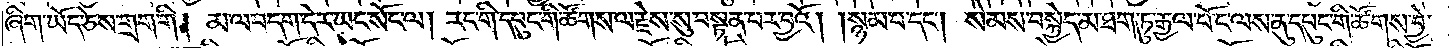ཞིག་ཡོད་ཅེས་གྲག་གི། མ་ལ་བདག་དེར་ཡང་སོང་ལ། རང་གི་དཔུང་གི་ཚོགས་ལ་རྗེས་སུ་བསྟན་པར་བྱའོ། །སྙམ་པ་དང༌། སེམས་བསྐྱེད་མ་ཐག་ཏུ་རྒྱལ་པོ་ང་ལས་ནུ་དཔུང་གི་ཚོགས་བྱེ་
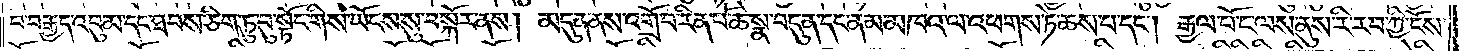བ་བརྒྱད་འབུམ་དང་ཐབས་ཅིག་ཏུ་བུ་སྟོང་གིས་ཡོངས་སུ་བསྐོར་ནས། མདུན་ནས་འགྲོ་བ་རིན་པོ་ཆེ་སྣ་བདུན་དང་ནམ་མཁའ་ལ་འཕགས་ཏེ་ཆས་པ་དང༌། རྒྱལ་པོ་ང་ལས་ནུས་རི་རབ་ཀྱི་ངོས་
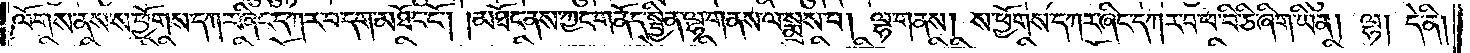ལོགས་ནས་ས་ཕྱོགས་དཀར་ཞིང་དཀར་བ་དག་མཐོང་ངོ༌། །མཐོང་ནས་ཀྱང་གནོད་སྦྱིན་ལྷ་གནས་ལ་སྨྲས་པ། ལྷ་གནས། ས་ཕྱོགས་དཀར་ཞིང་དཀར་བ་ཕ་བི་ཅི་ཞིག་ཡིན། ལྷ། དེ་ནི།
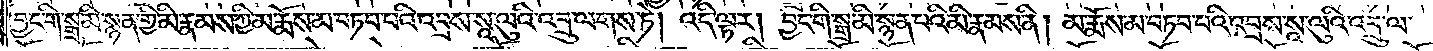བྱང་གི་སྒྲ་མི་སྙན་གྱི་མི་རྣམས་ཀྱི་མ་རྨོས་མ་བཏབ་པའི་འབྲས་སཱ་ལུའི་འབྲུ་ལགས་ཏེ། འདི་ལྟར། བྱང་གི་སྒྲ་མི་སྙན་པའི་མི་རྣམས་ནི། མ་རྨོས་མ་བཏབ་པའི་འབྲས་སཱ་ལུའི་འབྲུ་ལ་
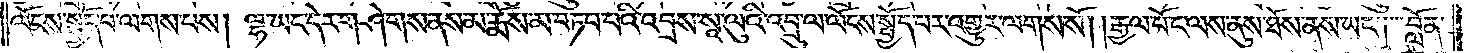ལོངས་སྤྱོད་པ་ལགས་པས། ལྷ་ཡང་དེར་གཤེགས་ནས་མ་རྨོས་མ་བཏབ་པའི་འབྲས་སཱ་ལུའི་འབྲུ་ལ་ལོངས་སྤྱོད་པར་འགྱུར་ལགས་སོ། །རྒྱལ་པོ་ང་ལས་ནུས་ཐོས་ནས་ཡང༌། བློན་
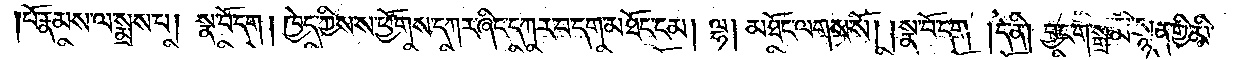པོ་རྣམས་ལ་སྨྲས་པ། སྣ་བོ་དག །ཁྱེད་ཀྱིས་ས་ཕྱོགས་དཀར་ཞིང་དཀར་བ་དག་མཐོང་ངམ། ལྷ། མཐོང་ལགས་སོ། །སྣ་བོ་དག །དེ་ནི། བྱང་གི་སྒྲ་མི་སྙན་གྱི་མི་
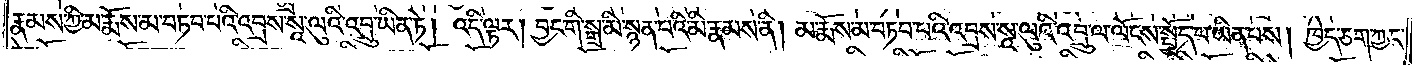རྣམས་ཀྱི་མ་རྨོས་མ་བཏབ་པའི་འབྲས་སཱ་ལུའི་འབྲུ་ཡིན་ཏེ། འདི་ལྟར། བྱང་གི་སྒྲ་མི་སྙན་པའི་མི་རྣམས་ནི། མ་རྨོས་མ་བཏབ་པའི་འབྲས་སཱ་ལུའི་འབྲུ་ལ་ལོངས་སྤྱོད་པ་ཡིན་པས། ཁྱེད་ཅག་ཀྱང་
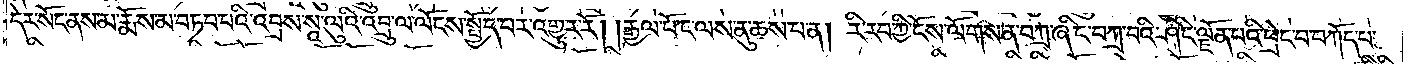དེར་སོང་ནས་མ་རྨོས་མ་བཏབ་པའི་འབྲས་སཱ་ལུའི་འབྲུ་ལ་ལོངས་སྤྱོད་པར་འགྱུར་རོ། །རྒྱལ་པོ་ང་ལས་ནུ་ཆས་པ་ན། རི་རབ་ཀྱི་ངོས་ལོགས་ན་བཀྲ་ཤིང་བཀྲ་བའི་ཤིང་ལྗོན་པའི་ཕྲེང་བ་བཀོད་པ་
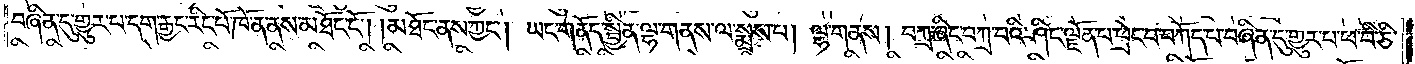བཞིན་དུ་གྱུར་པ་དག་རྒྱང་རིང་པོ་ཁོ་ན་ནས་མཐོང་ངོ༌། །མཐོང་ནས་ཀྱང༌། ཡང་གནོད་སྦྱིན་ལྷ་གནས་ལ་སྨྲས་པ། ལྷ་གནས། བཀྲ་ཞིང་བཀྲ་བའི་ཤིང་ལྗོན་པ་ཕྲེང་བ་བཀོད་པ་བཞིན་དུ་གྱུར་པ་ཕ་བི་ཅི་
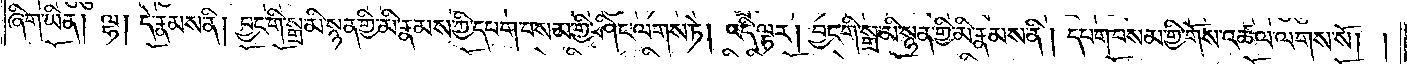ཞིག་ཡིན། ལྷ། དེ་རྣམས་ནི། བྱང་གི་སྒྲ་མི་སྙན་གྱི་མི་རྣམས་ཀྱི་དཔག་བསམ་གྱི་ཤིང་ལགས་ཏེ། འདི་ལྟར། བྱང་གི་སྒྲ་མི་སྙན་གྱི་མི་རྣམས་ནི། དཔག་བསམ་གྱི་གོས་འཚལ་ལགས་སོ། །
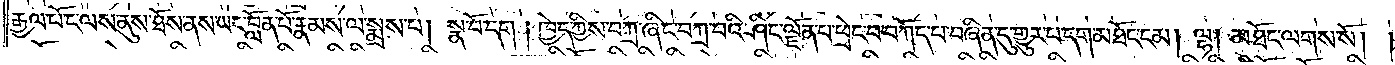རྒྱལ་པོ་ང་ལས་ནུས་ཐོས་ནས་ཡང་བློན་པོ་རྣམས་ལ་སྨྲས་པ། སྣ་བོ་དག །ཁྱེད་ཀྱིས་བཀྲ་ཞིང་བཀྲ་བའི་ཤིང་ལྗོན་པ་ཕྲེང་བ་བཀོད་པ་བཞིན་དུ་གྱུར་པ་དག་མཐོང་ངམ། ལྷ། མཐོང་ལགས་སོ། །
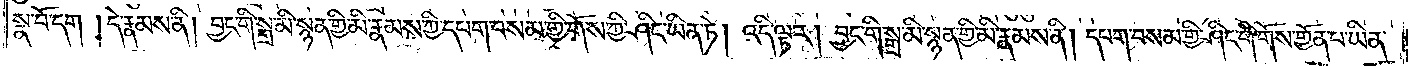སྣ་བོ་དག །དེ་རྣམས་ནི། བྱང་གི་སྒྲ་མི་སྙན་གྱི་མི་རྣམས་ཀྱི་དཔག་བསམ་གྱི་གོས་ཀྱི་ཤིང་ཡིན་ཏེ། འདི་ལྟར། བྱང་གི་སྒྲ་མི་སྙན་གྱི་མི་རྣམས་ནི། དཔག་བསམ་གྱི་ཤིང་གི་གོས་གྱོན་པ་ཡིན་
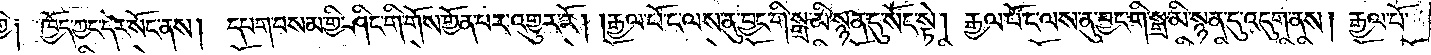གྱི༑ ཁྱོད་ཀྱང་དེར་སོང་ནས། དཔག་བསམ་གྱི་ཤིང་གི་གོས་གྱོན་པར་འགྱུར་རོ། །རྒྱལ་པོ་ང་ལས་ནུ་བྱང་གི་སྒྲ་མི་སྙན་དུ་སོང་སྟེ། རྒྱལ་པོ་ང་ལས་ནུ་བྱང་གི་སྒྲ་མི་སྙན་དུ་འདུག་ནས། རྒྱལ་པོ་
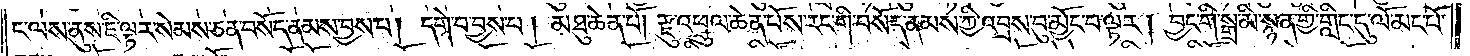ང་ལས་ནུས་ཇི་ལྟར་སེམས་ཅན་བསོད་ནམས་བྱས་པ། དགེ་བ་བྱས་པ། མཐུ་ཆེན་པོ། རྫུ་འཕྲུལ་ཆེན་པོས་རང་གི་བསོད་ནམས་ཀྱི་འབྲས་བུ་མྱོང་བ་ལྟར། བྱང་གི་སྒྲ་མི་སྙན་གྱི་གླིང་དུ་ལོ་མང་པོ་
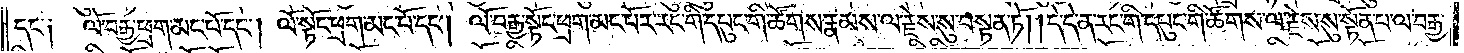དང་༑ ལོ་བརྒྱ་ཕྲག་མང་པོ་དང༌། ལོ་སྟོང་ཕྲག་མང་པོ་དང༌། ལོ་བརྒྱ་སྟོང་ཕྲག་མང་པོར་རང་གི་དཔུང་གི་ཚོགས་རྣམས་ལ་རྗེས་སུ་བསྟན་ཏོ། །དེ་དེ་ན་རང་གི་དཔུང་གི་ཚོགས་ལ་རྗེས་སུ་སྟོན་པ་ལ་བརྒྱ་
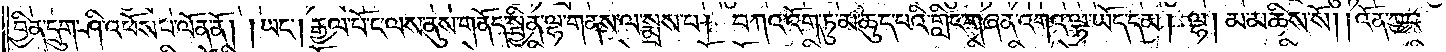བྱིན་དྲུག་ཤི་འཕོས་པ་ལོན་ནོ། །ཡང༌། རྒྱལ་པོ་ང་ལས་ནུས་གནོད་སྦྱིན་ལྷ་གནས་ལ་སྨྲས་པ། བཀའ་འོག་ཏུ་མ་ཆུད་པའི་གླིང་གཞན་འགའ་ལྟ་ཡོད་དམ། ལྷ། མ་མཆིས་སོ། །འོན་ཀྱང་
